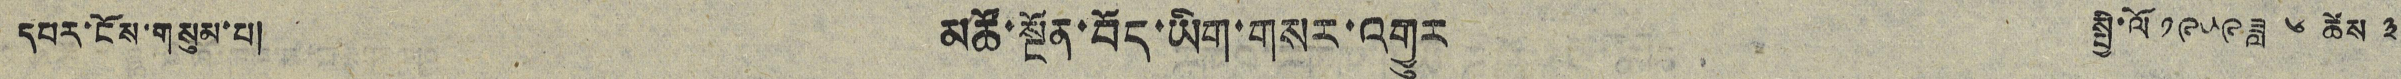དཔར་ངོས་གསུམ་པ། མཚོ་སྔོན་བོད་ཡིག་གསར་འགྱུར སྤྱི་ལོ ༡༩༥༩ ཟླ ༦ ཚེས ༣
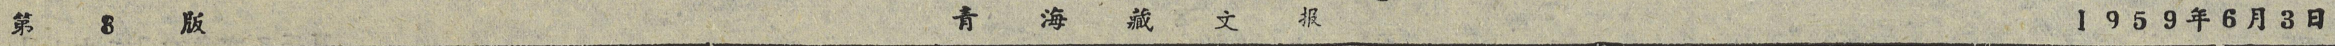第 3 版 青 海 藏 文 报 1959年6月3日
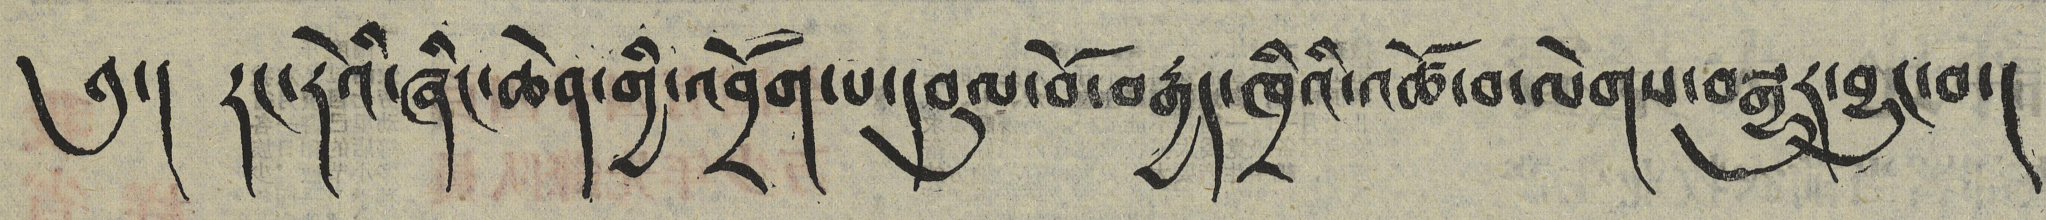༄༅། རང་རེའི་ཞིང་ཆེན་གྱི་འབྲོག་པ་དབུལ་བོ་བརྒྱད་ཁྲིའི་འཚོ་བ་ལེགས་བསྒྱུར་བྱུང་བ།
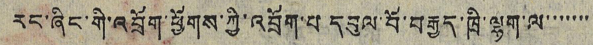རང་ཞིང་གི་འབྲོག་ཕྱོགས་ཀྱི་འབྲོག་པ དབུལ་བོ་བརྒྱད་ཁྲི་ལྷག་ལ་་་་་་་
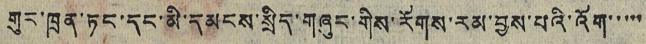གུང་ཁྲན་ཏང་དང་མི་དམངས་སྲིད་གཞུང་གིས་རོགས་རམ་བྱས་པའི་འོག་་་་་
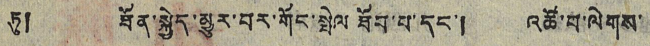ཏུ། ཐོན་སྐྱེད་མྱུར་བར་གོང་སྤེལ ཐོབ་པ་དང་། འཚོ་པ་ལེགས་
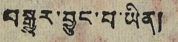བསྒྱུར་བྱུང་བ་ཡིན།
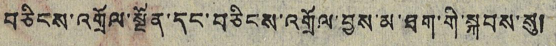བཅིངས་འགྲོལ་སྔོན་དང་བཅིངས་འགྲོལ་བྱས་མ་ཐག་གི་སྐབས་སུ།
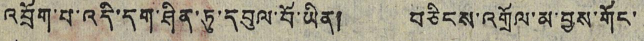འབྲོག་པ་འདི་དག་ཤིན་ཏུ་དབུལ་བོ་ཡིན། བཅིངས་འགྲོལ་མ་བྱས་གོང་
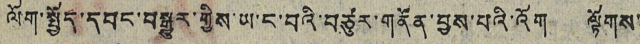ལོག་སྤྱོད་དབང་བསྒྱུར་གྱིས་ཡ་ང་བའི་བཙུར་གནོན་བྱས་པའི་འོག ལྟོགས་
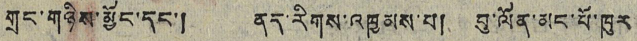གྲང་གཉིས་མྱོང་དང་། ནད་རིགས་འཁྱམས་པ། བུ་ལོན་མང་པོ་ཁུར
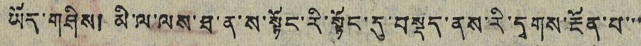ཡོད་གཤིས། མི་ལ་ལས་ཐ་ན་ས་སྟོང་རི་སྟོང་དུ་བསྡད་ནས་རི་དྭགས་རྔོན་པ་་་
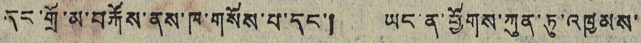དང་གྲོ་མ་བརྐོས་ནས་ཁ་གསོས་པ་དང་། ཡང་ན་ཕྱོགས་ཀུན་ཏུ་འཁྱམས་
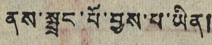ནས་སྤྲང་པོ་བྱས་པ་ཡིན།
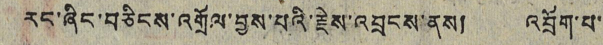རང་ཞིང་བཅིངས་འགྲོལ་བྱས་པའི་རྗེས་འབྲངས་ནས། འབྲོག་པ་
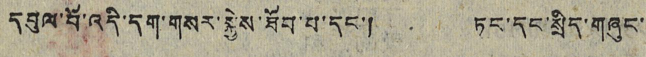དབུལ་པོ་འདི་དག་གསར་སྐྱེས་ཐོབ་པ་དང་། ཏང་དང་སྲིད་གཞུང་
